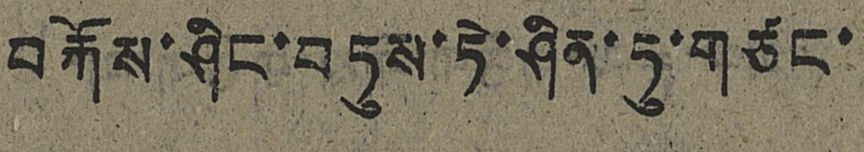བརྐོས་ཤིང་བཏུས་ཏེ་ཤིན་ཏུ་གཙང་
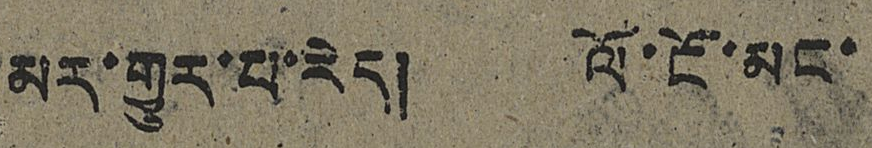མར་གྱུར་པ་རེད། ལོ་ངོ་མང་
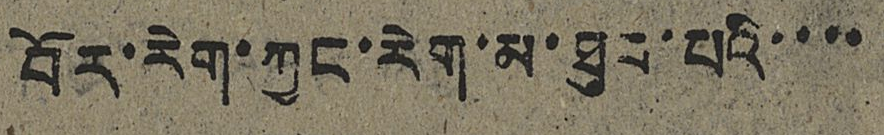བོར་རེག་ཀྱང་རེག་མ་ཐུབ་པའི་་་་
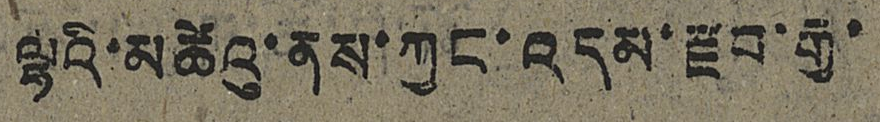ལྷའི་མཚེའུ་ནས་ཀྱང་འདམ་རྫབ་རྒྱ་
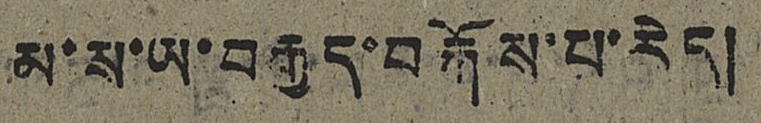མ་ས་ཡ་བརྒྱད་བརྐོས་པ་རེད།
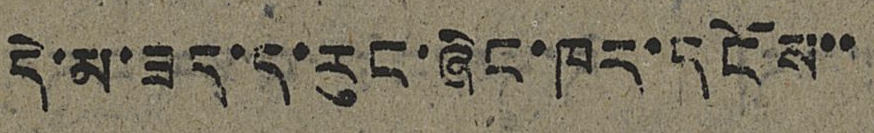དེ་མ་ཟད་ད་རུང་ཞིང་ཁར་དངོས་་
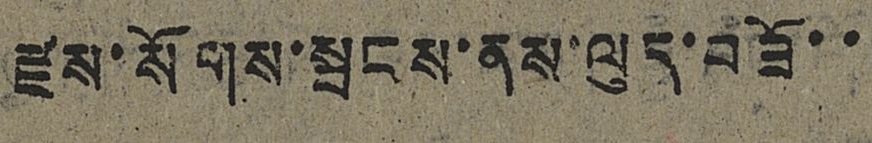རྫས་སོགས་སྦངས་ནས་ལུད་བཟོ་་
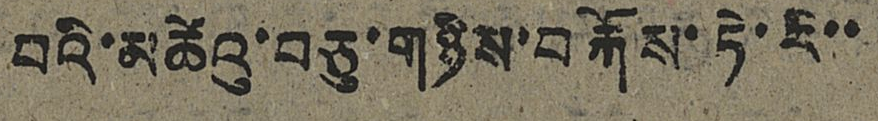བའི་མཚེའུ་བཅུ་གཉིས་བརྐོས་ཏེ་རེ་་
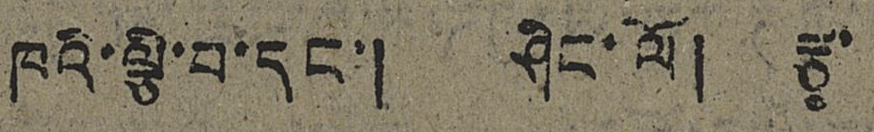ཁའི་ལྕི་བ་དང་། ཤིང་ལོ། རྩྭ་
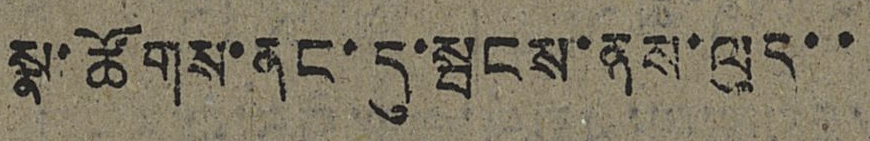སྣ་ཚོགས་ནང་དུ་སྦངས་ནས་ལུད་་
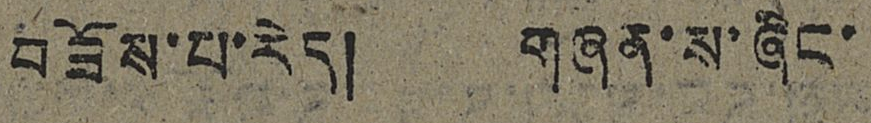བཟོས་པ་རེད། གཞན་ས་ཞིང་
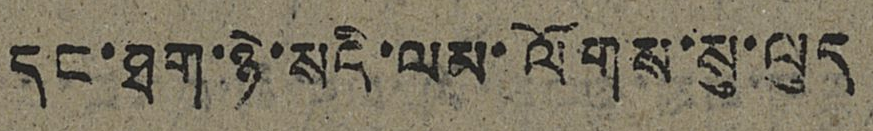དང་ཐག་ཉེ་སའི་ལམ་ལོགས་སུ་ལུད
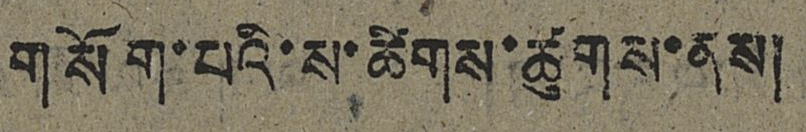གསོག་པའི་ས་ཚིགས་ཚུགས་ནས།
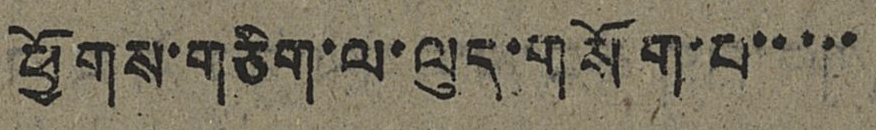ཕྱོགས་གཅིག་ལ་ལུད་གསོག་པ་་་་་
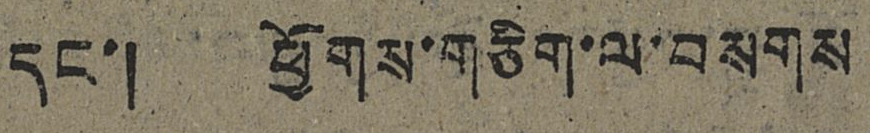དང་། ཕྱོགས་གཅིག་ལ་བསགས
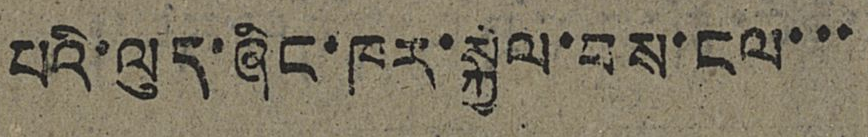པའི་ལུད་ཞིང་ཁར་སྐྱེལ་བས་ངལ་་་
